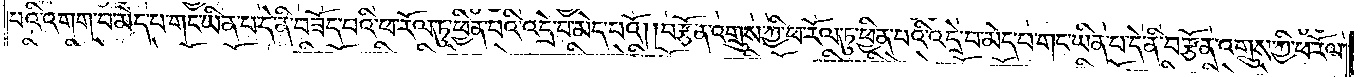པའི་འགག་པ་མེད་པ་གང་ཡིན་པ་དེ་ནི་བཟོད་པའི་ཕ་རོལ་ཏུ་ཕྱིན་པའི་འདྲེ་བ་མེད་པའོ། །བརྩོན་འགྲུས་ཀྱི་ཕ་རོལ་ཏུ་ཕྱིན་པའི་འདྲེ་བ་མེད་པ་གང་ཡིན་པ་དེ་ནི་བརྩོན་འགྲུས་ཀྱི་ཕ་རོལ་
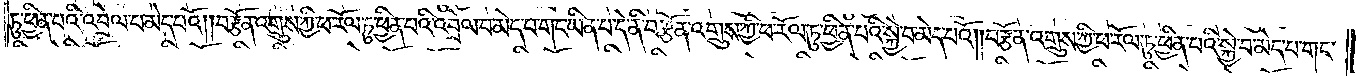ཏུ་ཕྱིན་པའི་འབྲེལ་བ་མེད་པའོ། །བརྩོན་འགྲུས་ཀྱི་ཕ་རོལ་ཏུ་ཕྱིན་པའི་འབྲེལ་བ་མེད་པ་གང་ཡིན་པ་དེ་ནི་བརྩོན་འགྲུས་ཀྱི་ཕ་རོལ་ཏུ་ཕྱིན་པའི་སྐྱེ་བ་མེད་པའོ། །བརྩོན་འགྲུས་ཀྱི་ཕ་རོལ་ཏུ་ཕྱིན་པའི་སྐྱེ་བ་མེད་པ་གང་
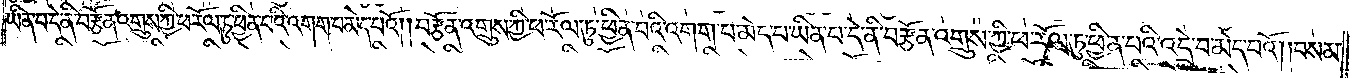ཡིན་པ་དེ་ནི་བརྩོན་འགྲུས་ཀྱི་ཕ་རོལ་ཏུ་ཕྱིན་པའི་འགག་པ་མེད་པའོ། །བརྩོན་འགྲུས་ཀྱི་ཕ་རོལ་ཏུ་ཕྱིན་པའི་འགག་པ་མེད་པ་གང་ཡིན་པ་དེ་ནི་བརྩོན་འགྲུས་ཀྱི་ཕ་རོལ་ཏུ་ཕྱིན་པའི་འདྲེ་བ་མེད་པའོ། །བསམ་
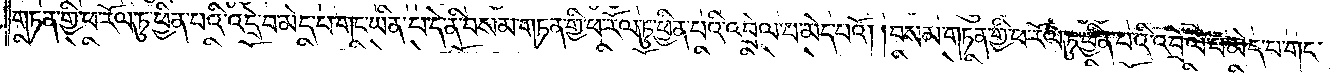གཏན་གྱི་ཕ་རོལ་ཏུ་ཕྱིན་པའི་འདྲེ་བ་མེད་པ་གང་ཡིན་པ་དེ་ནི་བསམ་གཏན་གྱི་ཕ་རོལ་ཏུ་ཕྱིན་པའི་འབྲེལ་པ་མེད་པའོ། །བསམ་གཏན་གྱི་ཕ་རོལ་ཏུ་ཕྱིན་པའི་འབྲེལ་པ་མེད་པ་གང་
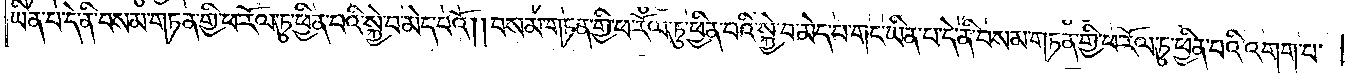ཡིན་པ་དེ་ནི་བསམ་གཏན་གྱི་ཕ་རོལ་ཏུ་ཕྱིན་པའི་སྐྱེ་བ་མེད་པའོ། །བསམ་གཏན་གྱི་ཕ་རོལ་ཏུ་ཕྱིན་པའི་སྐྱེ་བ་མེད་པ་གང་ཡིན་པ་དེ་ནི་བསམ་གཏན་གྱི་ཕ་རོལ་ཏུ་ཕྱིན་པའི་འགག་པ་
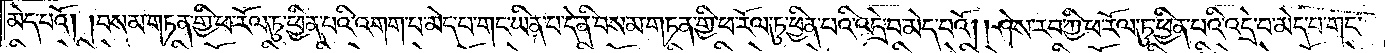མེད་པའོ། །བསམ་གཏན་གྱི་ཕ་རོལ་ཏུ་ཕྱིན་པའི་འགག་པ་མེད་པ་གང་ཡིན་པ་དེ་ནི་བསམ་གཏན་གྱི་ཕ་རོལ་ཏུ་ཕྱིན་པའི་འདྲེ་བ་མེད་པའོ། །ཤེས་རབ་ཀྱི་ཕ་རོལ་ཏུ་ཕྱིན་པའི་འདྲེ་བ་མེད་པ་གང་
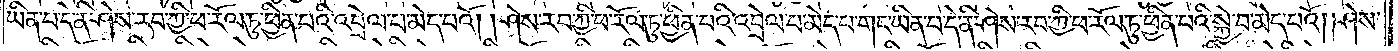ཡིན་པ་དེ་ནི་ཤེས་རབ་ཀྱི་ཕ་རོལ་ཏུ་ཕྱིན་པའི་འབྲེལ་པ་མེད་པའོ། །ཤེས་རབ་ཀྱི་ཕ་རོལ་ཏུ་ཕྱིན་པའི་འབྲེལ་པ་མེད་པ་གང་ཡིན་པ་དེ་ནི་ཤེས་རབ་ཀྱི་ཕ་རོལ་ཏུ་ཕྱིན་པའི་སྐྱེ་བ་མེད་པའོ། །ཤེས་
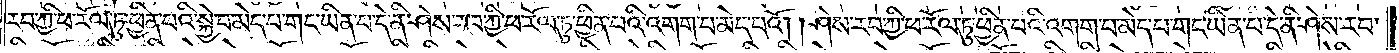རབ་ཀྱི་ཕ་རོལ་ཏུ་ཕྱིན་པའི་སྐྱེ་བ་མེད་པ་གང་ཡིན་པ་དེ་ནི་ཤེས་རབ་ཀྱི་ཕ་རོལ་ཏུ་ཕྱིན་པའི་འགག་པ་མེད་པའོ། །ཤེས་རབ་ཀྱི་ཕ་རོལ་ཏུ་ཕྱིན་པའི་འགག་པ་མེད་པ་གང་ཡིན་པ་དེ་ནི་ཤེས་རབ་
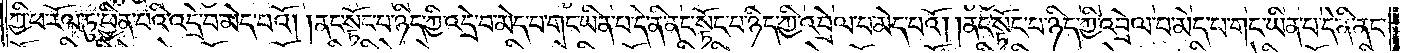ཀྱི་ཕ་རོལ་ཏུ་ཕྱིན་པའི་འདྲེ་བ་མེད་པའོ། །ནང་སྟོང་པ་ཉིད་ཀྱི་འདྲེ་བ་མེད་པ་གང་ཡིན་པ་དེ་ནི་ནང་སྟོང་པ་ཉིད་ཀྱི་འབྲེལ་བ་མེད་པའོ། །ནང་སྟོང་པ་ཉིད་ཀྱི་འབྲེལ་བ་མེད་པ་གང་ཡིན་པ་དེ་ནི་ནང་
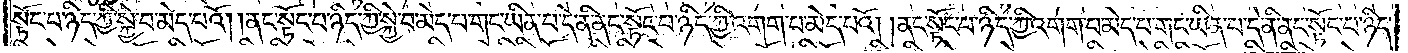སྟོང་པ་ཉིད་ཀྱི་སྐྱེ་བ་མེད་པའོ། །ནང་སྟོང་པ་ཉིད་ཀྱི་སྐྱེ་བ་མེད་པ་གང་ཡིན་པ་དེ་ནི་ནང་སྟོང་པ་ཉིད་ཀྱི་འགག་པ་མེད་པའོ། །ནང་སྟོང་པ་ཉིད་ཀྱི་འགག་པ་མེད་པ་གང་ཡིན་པ་དེ་ནི་ནང་སྟོང་པ་ཉིད་
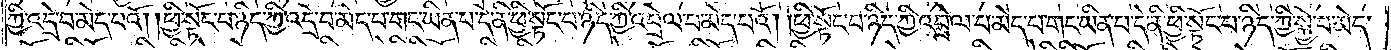ཀྱི་འདྲེ་བ་མེད་པའོ། །ཕྱི་སྟོང་པ་ཉིད་ཀྱི་འདྲེ་བ་མེད་པ་གང་ཡིན་པ་དེ་ནི་ཕྱི་སྟོང་པ་ཉིད་ཀྱི་འབྲེལ་བ་མེད་པའོ། །ཕྱི་སྟོང་པ་ཉིད་ཀྱི་འབྲེལ་བ་མེད་པ་གང་ཡིན་པ་དེ་ནི་ཕྱི་སྟོང་པ་ཉིད་ཀྱི་སྐྱེ་བ་མེད་
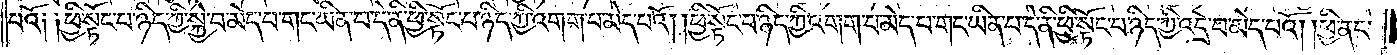པའོ། །ཕྱི་སྟོང་པ་ཉིད་ཀྱི་སྐྱེ་བ་མེད་པ་གང་ཡིན་པ་དེ་ནི་ཕྱི་སྟོང་པ་ཉིད་ཀྱི་འགག་པ་མེད་པའོ། །ཕྱི་སྟོང་པ་ཉིད་ཀྱི་འགག་པ་མེད་པ་གང་ཡིན་པ་དེ་ནི་ཕྱི་སྟོང་པ་ཉིད་ཀྱི་འདྲེ་བ་མེད་པའོ། །ཕྱི་ནང་
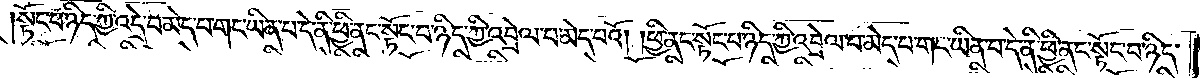སྟོང་པ་ཉིད་ཀྱི་འདྲེ་བ་མེད་པ་གང་ཡིན་པ་དེ་ནི་ཕྱི་ནང་སྟོང་པ་ཉིད་ཀྱི་འབྲེལ་བ་མེད་པའོ། །ཕྱི་ནང་སྟོང་པ་ཉིད་ཀྱི་འབྲེལ་བ་མེད་པ་གང་ཡིན་པ་དེ་ནི་ཕྱི་ནང་སྟོང་པ་ཉིད་
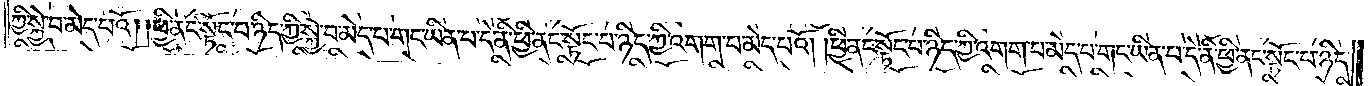ཀྱི་སྐྱེ་བ་མེད་པའོ། །ཕྱི་ནང་སྟོང་པ་ཉིད་ཀྱི་སྐྱེ་བ་མེད་པ་གང་ཡིན་པ་དེ་ནི་ཕྱི་ནང་སྟོང་པ་ཉིད་ཀྱི་འགག་པ་མེད་པའོ། །ཕྱི་ནང་སྟོང་པ་ཉིད་ཀྱི་འགག་པ་མེད་པ་གང་ཡིན་པ་དེ་ནི་ཕྱི་ནང་སྟོང་པ་ཉིད་
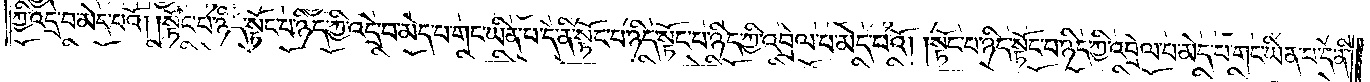ཀྱི་འདྲེ་བ་མེད་པའོ། །སྟོང་པ་ཉིད་སྟོང་པ་ཉིད་ཀྱི་འདྲེ་བ་མེད་པ་གང་ཡིན་པ་དེ་ནི་སྟོང་པ་ཉིད་སྟོང་པ་ཉིད་ཀྱི་འབྲེལ་པ་མེད་པའོ། །སྟོང་པ་ཉིད་སྟོང་པ་ཉིད་ཀྱི་འབྲེལ་བ་མེད་པ་གང་ཡིན་པ་དེ་ནི་
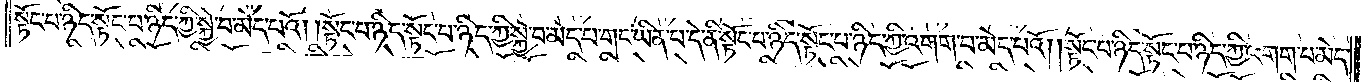སྟོང་པ་ཉིད་སྟོང་པ་ཉིད་ཀྱི་སྐྱེ་བ་མེད་པའོ། །སྟོང་པ་ཉིད་སྟོང་པ་ཉིད་ཀྱི་སྐྱེ་བ་མེད་པ་གང་ཡིན་པ་དེ་ནི་སྟོང་པ་ཉིད་སྟོང་པ་ཉིད་ཀྱི་འགག་པ་མེད་པའོ། །སྟོང་པ་ཉིད་སྟོང་པ་ཉིད་ཀྱི་འགག་པ་མེད་
